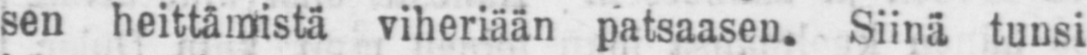sen heittämistä viheriään patsaasen. Siinä tunsi
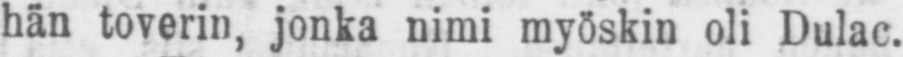hän toverin, jonka nimi myöskin oli Dulac.
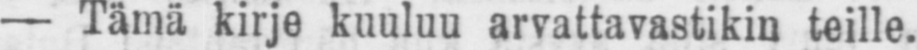— Tämä kirje kuuluu arvattavastikin teille.
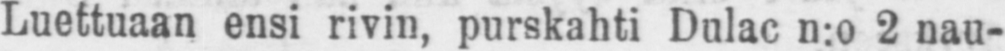Luettuaan ensi rivin, purskahti Dulac n:o 2 nau-
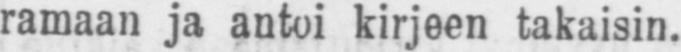ramaan ja antoi kirjeen takaisin.
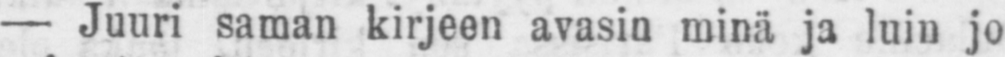— Juuri saman kirjeen avasin minä ja luin jo
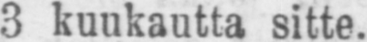3 kuukautta sitte.
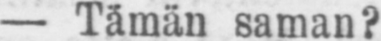— Tämän saman?
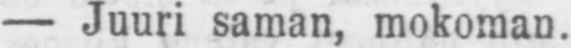— Juuri saman, mokoman.
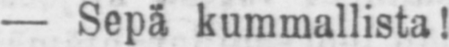— Sepä kummallista!
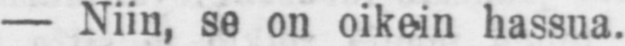— Niin, se on oikein hassua.
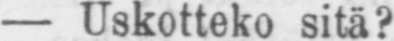— Uskotteko sitä?
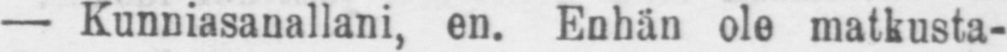— Kunniasanallani, en. Enhän ole matkusta-
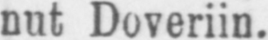nut Doveriin.
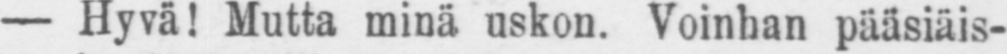— Hyvä! Mutta minä uskon. Voinhan pääsiäis-
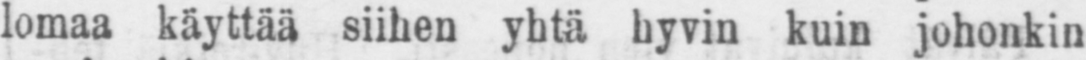lomaa käyttää siihen kuin johonkin
